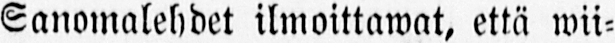Sanomalehdet ilmoittawat, että wii-
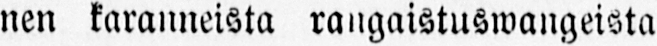nen karanneista rangaistuswangeista
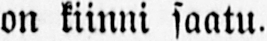on kiinni saatu.
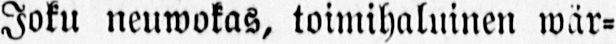Joku neuwokas, toimihaluinen wär-
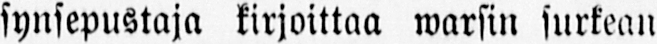synsepustaja kirjoittaa warsin surkean
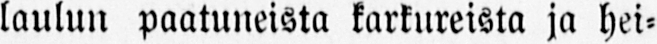laulun paatuneista karkureista ja hei-
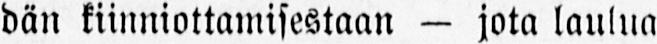dän kiinniottamisestaan — jota laulua
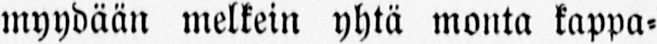myydään melkein yhtä monta kappa-
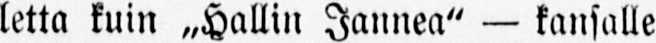letta kuin „Hallin Jannea" — kansalle
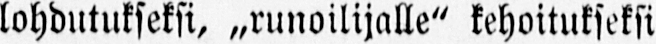lohdutukseksi, „runoilijalle" kehoitukseksi
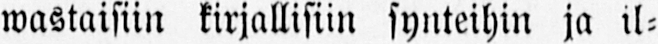wastaisiin kirjallisiin synteihin ja il-
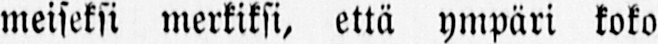meiseksi merkiksi, että ympäri koko
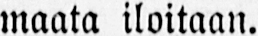maata iloitaan.
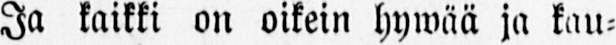Ja kaikki on oikein hywää ja kau-
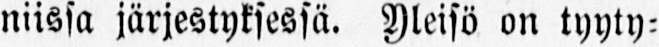niissa järjestyksessä. Yleisö on tyyty-
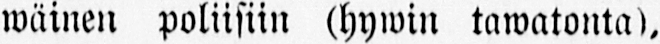wäinen poliisiin (hywin tawatonta),
